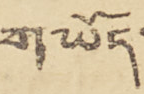གཡོད་
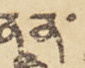ནཱན་
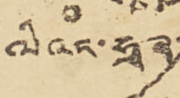ལིའང་ཧྭན་
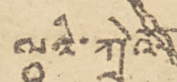ལའི་ཀྭེའོ་
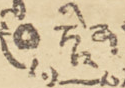ཏཱིན་པཱིན་ཧྥུ་
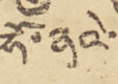ཧོ་ནའེ་
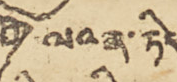ལའན་ཏིང་
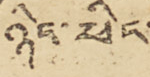ཉིང་ཕིང་
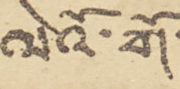ལེའོ་གོ་
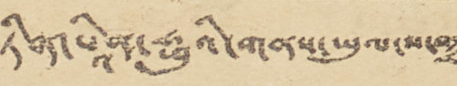ཏིན་པཱིན་ཧྥུའི་གནས་ཡུལ་ས་བཀྲ་
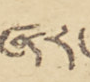ཞར་
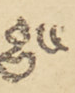བྱུང་
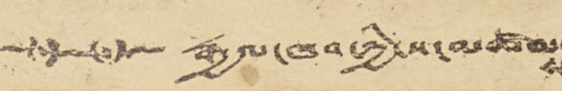རྒྱལ་ཁབ་ཀྱི་ས་མཚམས་
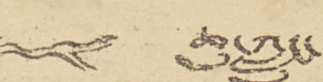ཆུ་ཀླུང་
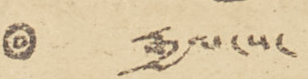རྒྱལ་ས་
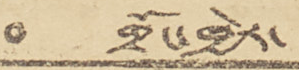གྲོང་ཁྱེར་
